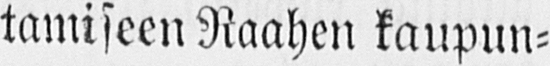tamiseen Raahen kaupun-
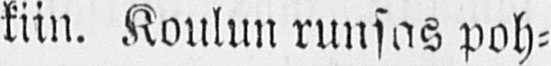kiin. Koulun runsas poh-
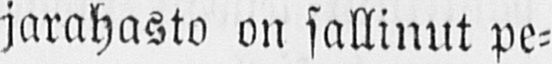jarahasto on sallinut pe-
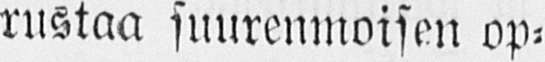rustaa suurenmoisen op-
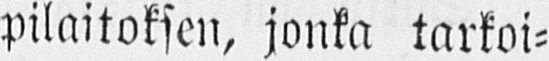pilaitoksen, jonka tarkoi-
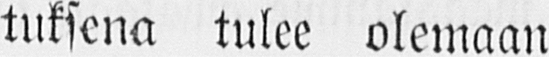tuksena tulee olemaan
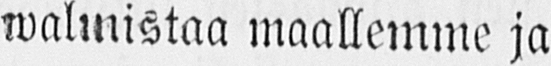walmista maallemme ja
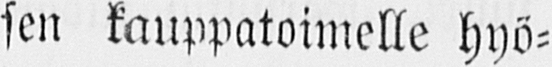sen kauppatoimelle hyö-
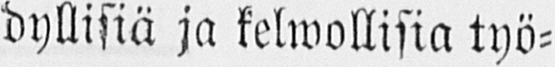dyllisiä ja kelwollisia työ-
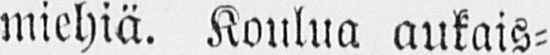miehiä. Koulua aukais-
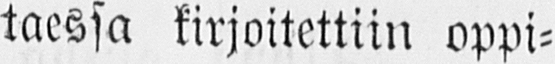taessa kirjoitettiin oppi-
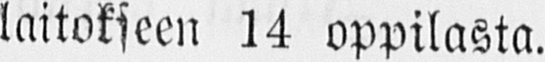laitokseen 14 oppilasta.
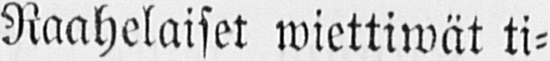Raahelaiset wiettiwät ti-
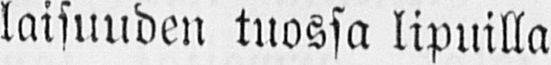laisuuden tuossa lipuilla
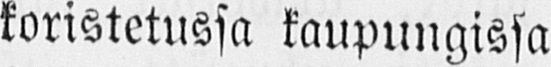koristetussa kaupungissa
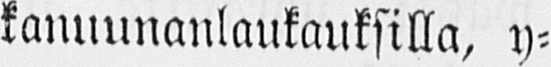kanuunanlaukauksilla, y-
